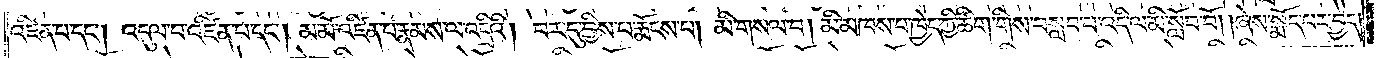འཛིན་པ་དང༌། འདུལ་བ་འཛིན་པ་དང༌། མ་མོ་འཛིན་པ་རྣམས་ལ་འདྲིའི། བར་དུ་བྱིས་པ་རྨོངས་པ། མི་གསལ་བ། མི་མཁས་པ་ཁྱེད་ཀྱི་ཚིག་གིས་བསླབ་པ་འདི་ལ་མི་སློབ་བོ། །ཞེས་སྨོད་པར་བྱེད་
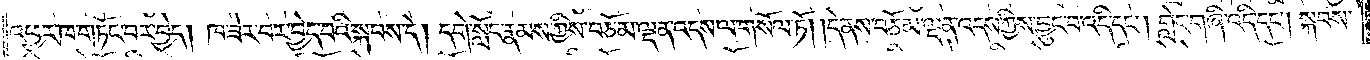འཕྱར་ཁ་གཏོང་བར་བྱེད། ཁ་ཟེར་བར་བྱེད་པའི་སྐབས་དེ། དགེ་སློང་རྣམས་ཀྱིས་བཅོམ་ལྡན་འདས་ལ་གསོལ་ཏོ། །དེ་ནས་བཅོམ་ལྡན་འདས་ཀྱིས་བྱུང་བ་འདི་དང༌། གླེང་གཞི་འདི་དང༌། སྐབས་
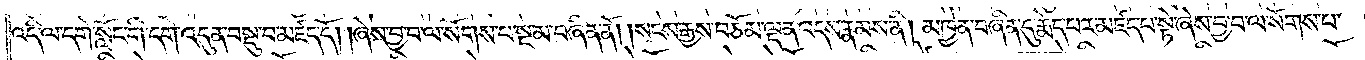འདི་ལ་དགེ་སློང་གི་དགེ་འདུན་བསྡུ་བ་མཛད་དོ། །ཞེས་བྱ་བ་ལ་སོགས་པ་སྔ་མ་བཞིན་ནོ། །སངས་རྒྱས་བཅོམ་ལྡན་འདས་རྣམས་ནི། མཁྱེན་བཞིན་དུ་རྨེད་པར་མཛད་པ་སྟེ་ཞེས་བྱ་བ་ལ་སོགས་པ་
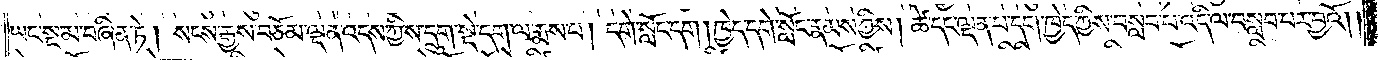ཡང་སྔ་མ་བཞིན་ཏེ། སངས་རྒྱས་བཅོམ་ལྡན་འདས་ཀྱིས་དྲུག་སྡེ་དག་ལ་རྨས་པ། དགེ་སློང་དག །ཁྱེད་དགེ་སློང་རྣམས་ཀྱིས། ཚེ་དང་ལྡན་པ་དག་ཁྱེད་ཀྱིས་བསླབ་པ་འདི་ལ་བསླབ་པར་བྱའོ། །
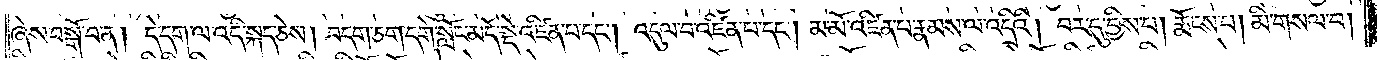ཞེས་བསྒོ་བ་ན། དེ་དག་ལ་འདི་སྐད་ཅེས། བདག་ཅག་དགེ་སློང་མདོ་སྡེ་འཛིན་པ་དང༌། འདུལ་བ་འཛིན་པ་དང༌། མ་མོ་འཛིན་པ་རྣམས་ལ་འདྲིའི། བར་དུ་བྱིས་པ། རྨོངས་པ། མི་གསལ་བ།
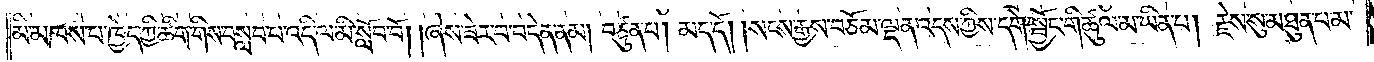མི་མཁས་པ་ཁྱེད་ཀྱི་ཚིག་གིས་བསླབ་པ་འདི་ལ་མི་སློབ་བོ། །ཞེས་ཟེར་བ་བདེན་ནམ། བཙུན་པ། མད་དོ། །སངས་རྒྱས་བཅོམ་ལྡན་འདས་ཀྱིས་དགེ་སྦྱོང་གི་ཚུལ་མ་ཡིན་པ། རྗེས་སུ་མཐུན་པ་མ་
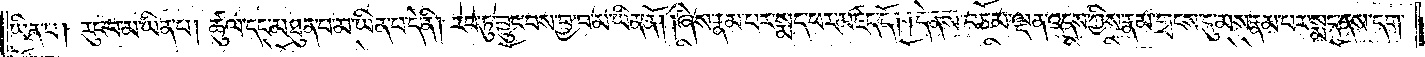ཡིན་པ། རུང་བ་མ་ཡིན་པ། ཚུལ་དང་མཐུན་པ་མ་ཡིན་པ་དེ་ནི། རབ་ཏུ་བྱུང་བས་བྱ་བ་མ་ཡིན་ནོ། །ཞེས་རྣམ་པར་སྨད་པར་མཛད་དོ། །དེ་ནས་བཅོམ་ལྡན་འདས་ཀྱིས་རྣམ་གྲངས་དུ་མས་རྣམ་པར་སྨད་ནས་དག་
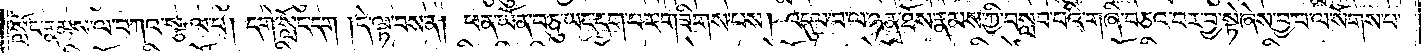སློང་རྣམས་ལ་བཀའ་སྩལ་པ། དགེ་སློང་དག །དེ་ལྟ་བས་ན། ཕན་ཡོན་བཅུ་ཡང་དག་པར་གཟིགས་པས། འདུལ་བ་ལ་ཉན་ཐོས་རྣམས་ཀྱི་བསླབ་པའི་གཞི་བཅའ་བར་བྱ་སྟེ་ཞེས་བྱ་བ་ལ་སོགས་པ་
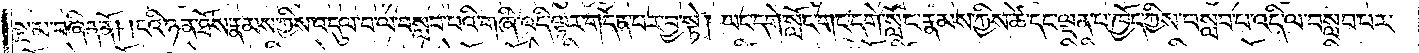སྔ་མ་བཞིན་ནོ། །ངའི་ཉན་ཐོས་རྣམས་ཀྱིས་འདུལ་བ་ལ་བསླབ་པའི་གཞི་འདི་ལྟར་གདོན་པར་བྱ་སྟེ། ཡང་དགེ་སློང་གང་དགེ་སློང་རྣམས་ཀྱིས་ཚེ་དང་ལྡན་པ་ཁྱོད་ཀྱིས་བསླབ་པ་འདི་ལ་བསླབ་པར་
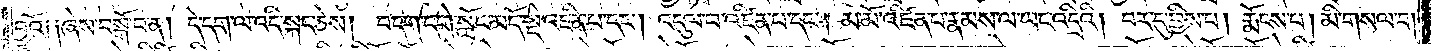བྱའོ༑ ༑ཞེས་བསྒོ་བ་ན། དེ་དག་ལ་འདི་སྐད་ཅེས། བདག་དགེ་སློང་མདོ་སྡེ་འཛིན་པ་དང༌། འདུལ་བ་འཛིན་པ་དང༌། མ་མོ་འཛིན་པ་རྣམས་ལ་ཡང་འདྲིའི། བར་དུ་བྱིས་པ། རྨོངས་པ། མི་གསལ་བ།
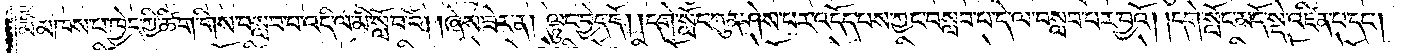མི་མཁས་པ་ཁྱེད་ཀྱི་ཚིག་གིས་བསླབ་པ་འདི་ལ་མི་སློབ་པོ། །ཞེས་ཟེར་ན། ལྟུང་བྱེད་དོ། །དགེ་སློང་ཀུན་ཤེས་པར་འདོད་པས་ཀྱང་བསླབ་པ་དེ་ལ་བསླབ་པར་བྱའོ། །དགེ་སློང་མདོ་སྡེ་འཛིན་པ་དང༌།
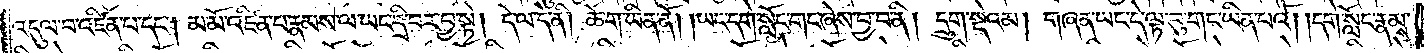འདུལ་བ་འཛིན་པ་དང༌། མ་མོ་འཛིན་པ་རྣམས་ལ་ཡང་དྲི་བར་བྱ་སྟེ། དེ་ལ་དེ་ནི། ཆོ་ག་ཡིན་ནོ། །ཡང་དགེ་སློང་གང་ཞེས་བྱ་བ་ནི། དྲུག་སྡེའམ། གཞན་ཡང་དེ་ལྟ་བུ་གང་ཡིན་པའོ། །དགེ་སློང་རྣམས་
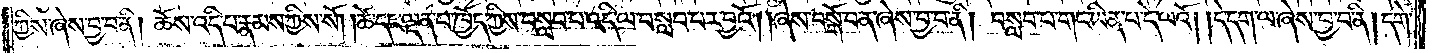ཀྱིས་ཞེས་བྱ་བ་ནི། ཆོས་འདི་པ་རྣམས་ཀྱིས་སོ། །ཚེ་དང་ལྡན་པ་ཁྱོད་ཀྱིས་བསླབ་པ་འདི་ལ་བསླབ་པར་བྱའོ། །ཞེས་བསྒོ་བ་ན་ཞེས་བྱ་བ་ནི། བསླབ་པ་གང་ཡིན་པ་དེ་ལའོ། །དེ་དག་ལ་ཞེས་བྱ་བ་ནི། དགེ་
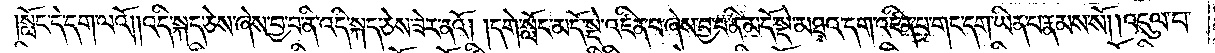།སློང་དེ་དག་ལའོ། །འདི་སྐད་ཅེས་ཞེས་བྱ་བ་ནི་འདི་སྐད་ཅེས་ཟེར་ནའོ། །དགེ་སློང་མདོ་སྡེ་འཛིན་པ་ཞེས་བྱ་བ་ནི་མདོ་སྡེ་མཐའ་དག་འཛིན་པ་གང་དག་ཡིན་པ་རྣམས་སོ། །འདུལ་བ་
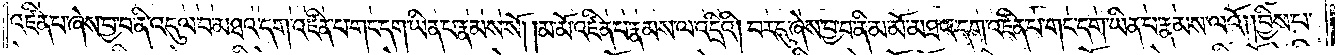འཛིན་པ་ཞེས་བྱ་བ་ནི་འདུལ་བ་མཐའ་དག་འཛིན་པ་གང་དག་ཡིན་པ་རྣམས་སོ། །མ་མོ་འཛིན་པ་རྣམས་ལ་འདྲིའི། །བར་དུ་ཞེས་བྱ་བ་ནི་མ་མོ་མཐའ་དག་འཛིན་པ་གང་དག་ཡིན་པ་རྣམས་ལའོ། །བྱིས་པ་
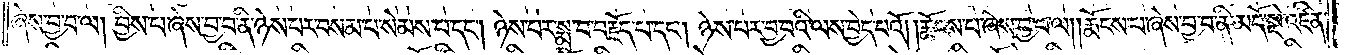ཞེས་བྱ་བ་ལ། བྱིས་པ་ཞེས་བྱ་བ་ནི་ཉེས་པར་བསམ་པ་སེམས་པ་དང༌། ཉེས་པར་སྨྲ་བ་བརྗོད་པ་དང༌། ཉེས་པར་བྱ་བའི་ལས་བྱེད་པའོ། །རྨོངས་པ་ཞེས་བྱ་བ་ལ། །རྨོངས་པ་ཞེས་བྱ་བ་ནི་མདོ་སྡེ་འཛིན་
